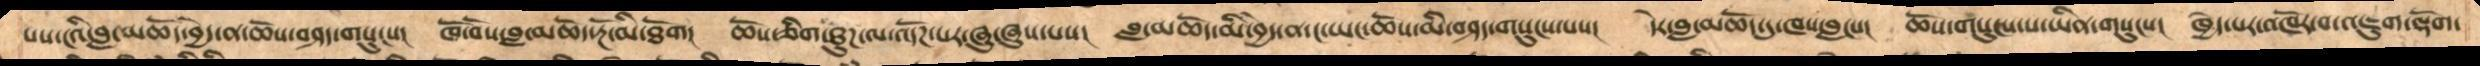པས་ངའི་བླ་མཆོད་བྱེད་ན་ཆོས་བཤད་གསུངས།   ཁོ་བོས་བླ་མཆོད་རྔོ་མི་ཐོག།   ཆོས་ཅིག་ཐུཌ་ལ་འདོཌ་པར་ཞུ་ཞུས་པས།    བླ་མཆོད་མི་བྱེད་ན་ང་ཡང་ཆོས་མི་བཤད་གསུངས་པས།  དེར་བླ་མཆོད་དུ་ཁས་བླངས།    ཆོས་གསུངས་པ་ཡིན་གསུངས།    ཁྱེད་པར་འཁོར་བ་འཇུག་ལྡོག་
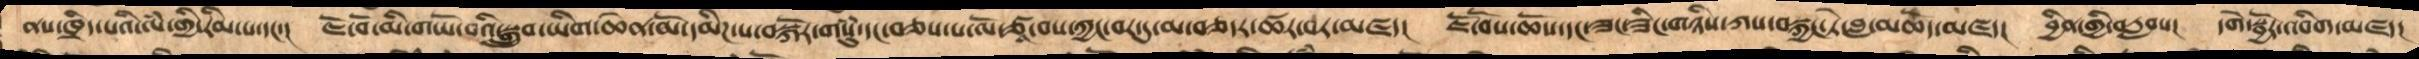ནས་ཁྲིད་པའི་ལཾ་གྱི་རིམ་པ་དང་།  ཇོ་བོ་མི་གཡོ་བའི་སྒྲུབ་ཡིག་ཆེན་མོ་དམིཌ་པ་བསྐོར་གསུཾ་དང་བཅས་པ་ལོ་ཙཱ་བས་ཀྱང་བར་དུ་མ་བཅདར་ཚར་བར་མཛད།  ཇོ་བོས་ཆོས་དང་ཟང་ཟིང་གཉིས་ཀས་བསྐྱང་ཏེ་བླ་མཆོད་མཛད།   བྱིན་གྱི་བརླབས།   དགེ་སྦྱོར་འབིག་མཛད།
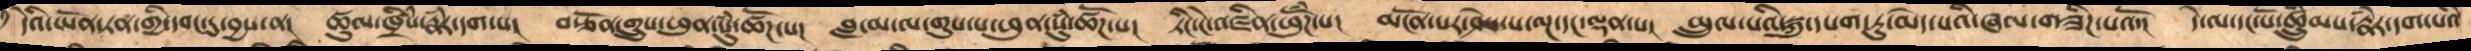དེའི་ཡོན་ཏན་གྱི་དབང་དུ་བྱས་ན།  ཚུལ་ཁྲིཾས་རྣཾར་དག་པ།   བརྩོན་གྲུས་ཕུན་སུཾ་ཚོཌ་པ།   བླ་མ་ལ་གུས་པ་ཕུན་སུཾ་ཚོཌ་པ།   ཏིང་ངེ་འཛིན་ཕུཾཚོཌ་པ།  མངོན་པར་ཤེས་པ་ལྔ་དང་ལྡན་པ།   སྤྲུལ་པའི་སྐུ་དཔག་ཏུ་མེད་པའི་ཞལ་གཟིཌ་པའོ་།   དེ་ལ་དང་པོ་ཚྲིུམས་རྣཾར་དག་པའི
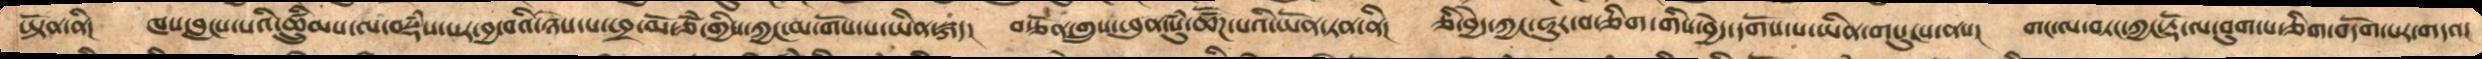ཡྟོན་ནི།   ཁས་བླངས་པའི་ཚྲིུམས་ལ་བསྡཾས་པར་བྱ་བའི་ཉེས་པ་ཕྲ་མོ་ཙཾ་གྱིས་ཀྱང་མ་གོས་པ་ཡིན་སྐད།   བརྩོན་གྲུས་ཕུན་སུཾ་ཚོཌ་པའི་ཡོན་ཏན་ནི།   ཅི་བྱེད་ཀྱང་ཧུར་བ་ཅིག་གིས་བྱེད་དགོས་པ་ཡིན་གསུངས་ནས།   གང་ལ་བཏང་ཀྱང་རྡོ་ལ་བུག་པ་ཅིག་བདོག་པར་གདའ།
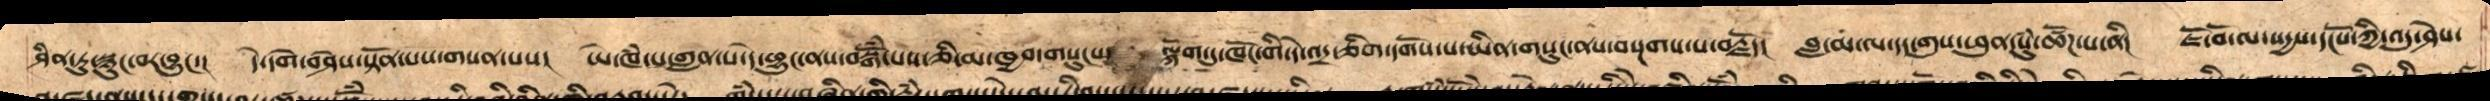ཤིན་ཏུ་སྙུང་བར་བྱུང་།   དེ་དགེ་བཤེས་སྟོན་པས་གསན་པས།   ཡེ་ཁཾ་པ་གླན་པ་དེ་ཕྱུང་ནས་བསྒོཾས་པས་ཅི་མ་ཁྱབ་གསུངས།   ལྐོག་ཏུ་ཁོང་གི་དེ་འདྲ་ཅིག་དགོས་པ་ཡིན་གསུང་ནས་བསྔགས་པ་བརྗོད།   བླ་མ་ལ་དད་གུས་ཕུན་སུཾ་ཚོཌ་པ་ནི། ཇོ་བོ་ལ་སདྱས་དངོས་ཀྱི་འདུ་ཤེས་
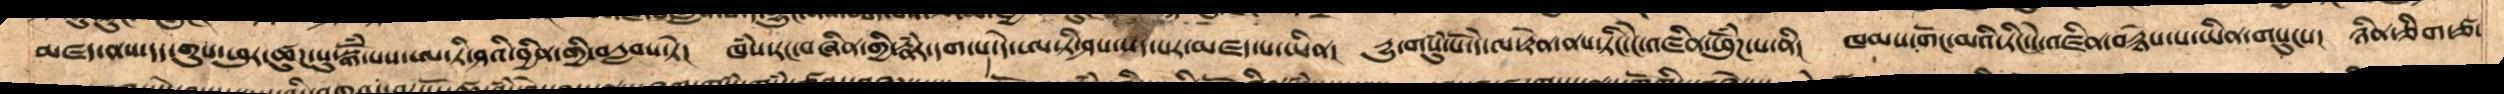མཛད་ནས་དད་གུས་ཕུར་ཚུཌ་སུ་སྒོཾ་པས་ཨ་ཏི་ཤའི་བྱིན་གྱི་བརླབས་ཏེ།   ཁཾས་རང་བཞིན་གྱི་རྣཾར་དག་པ་དེ་ཨ་ཏི་ཤས་སད་པར་མཛད་པ་ཡིན།   དྱུ་གསུཾ་པོ་དེ་ལ་རྟེན་ནས་ཏིང་ངེ་འཛིན་ཕོུཾཌ་པ་ནི།   ཁམས་གོང་མའི་ཏིང་ངེ་འཛིན་བརྙེས་པ་ཡིན་གསུངས།   ཉིན་ཅིག་ཙ་
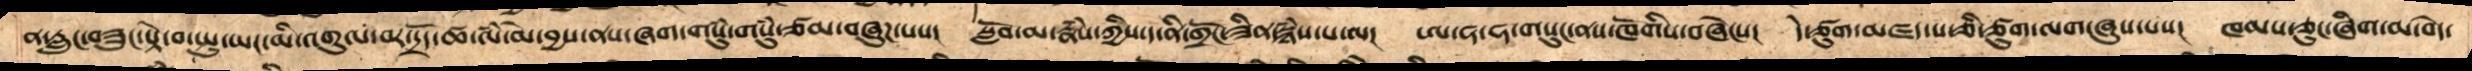ན་རླུང་བཟུང་སྟེ་བ་སྤུ་ཡང་མི་འགུལ་བར་དྲོད་ཚ་ལཾ་མེ་བྱས་ནས་ཞག་གསུཾ་གསུཾ་ཙམ་བཞུཌ་པས།  སློབ་མ་རྣཾས་ཀྱིས་ད་ནི་གྲོང་ཟིན་སྙཾས་པ་ལ།  ཨ་ཧ་ཧ་གསུང་ནས་ཁོགིས་བཞེངས།   དེ་ཙུག་མཛད་པ་ཅི་ཙུག་ལག་ཞུས་པས།  ཁམས་ཅུང་ཞིག་མ་བདེ་
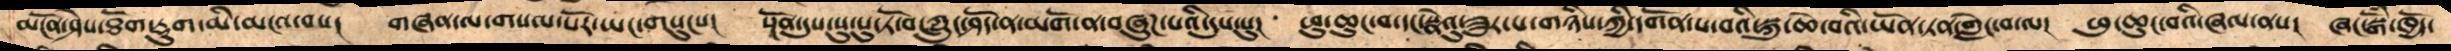མངོན་ཤེས་ཐོག་རྡུག་མི་མངའ་བས།   གཞན་ལ་གསལ་པོར་ཡང་གསུངས།   སྔོན་དུས་སུ་པུ་ཏོ་བ་ཀླུང་ཤོད་ན་མགོ་ན་བཞུཌ་པའི་དུས་སུ།   ཕུ་ཆུང་བ་དང་སྣེའུ་ཟུར་པ་གཉིས་ཀྱི་དགོན་པ་བའི་སྐུ་ཆེ་བའི་ཡོན་ཏན་གླེང་བ་ལ།   ཕུ་ཆུང་བའི་ཞལ་ནས།  ཞང་སྒོཾ་ཁྱོད་
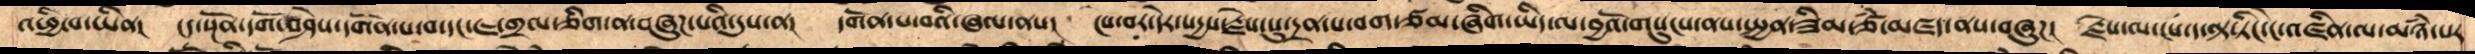འཕྱི་བ་ཡིན།   ངད་སྔོན་དགེ་བཤེས་དགོན་པ་བ་དང་ཇ་གྲལ་ཅིག་ན་བཞུཌ་པའི་དུས་ན།   དགོན་པ་བའི་ཞལ་ནས།  ངེས་བར་དེར་སདྱས་རྗེས་སུ་དྲན་པ་བག་ཙམ་ཞིག་ཡིད་ལ་བྱའོ་གསུངས་ནས་སྤྱན་ཟིམ་ཙཾ་མཛད་ནས་བཞུཌ།  རྗེས་ལ་ངས་ད་ལྟ་ཏིང་ངེ་འཛིན་ལ་མཉཾ་པར
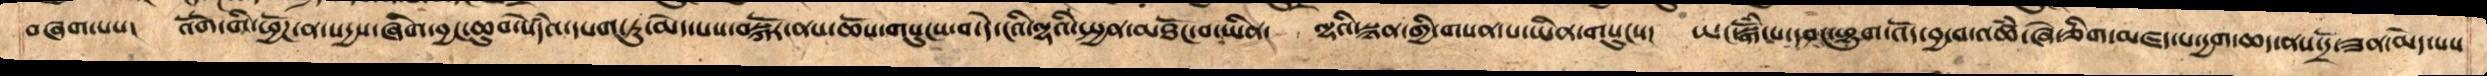བཞག་པས་   འོག་གི་ཕྱོཌ་ན་སདྱས་ཞིག་བྱང་ཆུབ་སེཾདའ་དཔག་ཏུ་མེད་པས་བསྐོར་ནས་ཆོས་གསུངས་བ་དེ་ངའི་ལྷའི་སྤྱན་མཐོང་བ་ཡིན།   ལྷའི་སྙན་གྱི་གསན་པ་ཡིན་གསུངས།   ཡང་སྒོཾ་པ་དབང་ཕྱུག་འོད་བྱ་བ་འཚཾ་ཞེ་ཅིག་མཛད་པ་དྱག་ཆད་ནས་དྲོ་ཟན་མེད་པས
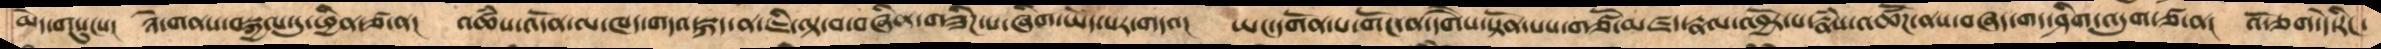མེད་གསུངས།   ཉེ་གནས་བསྐྱལ་དུ་ཕྱིན་ཙ་ན།   འཚཾས་འདོན་ལ་ཁད་གདའ་སྐད་ན་ཇི་ལྟ་བ་བཞིན་གཟིཌ་པ་ཞིག་ཡོད་པར་གདའ།  ཡང་དགོན་པ་གོང་ན་དགཻས་སྟོན་པས་གཙོ་མཛད་རྣལ་འབྱོར་པ་རྣཾས་འཚོཌ་ནས་བཞད་གད་ཤིག་འདུག་ཙ་ན། འོ་ཅག་དེ་རིང་
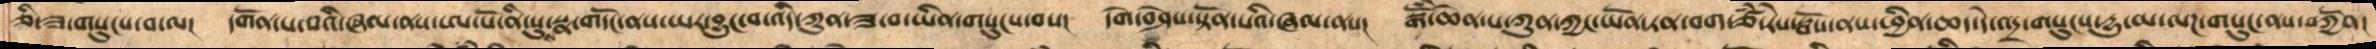ཅི་ཟ་གསུངས་བ་ལ།  དགོན་པ་བའི་ཞལ་ནས་ཨ་པོ་ནི་པུ་སྣ་གདོང་ན་ཡར་བྱུང་བ་འདི་ཀུན་ཟ་བ་ཡིན་གསུངས་བས།  དགེ་བཤེས་སྟོན་པའི་ཞལ་ནས།  སྒོཾ་ཆེན་པ་ཀུན་ཀྱང་ཡོན་ཏན་བག་ཙཾ་རེས་སྦོས་ནས་ཕྱིན་ཆད་དེ་འདྲ་གསུངས་དྱུ་མ་ལཌ་གསུང་ནས་བཀྱོན།
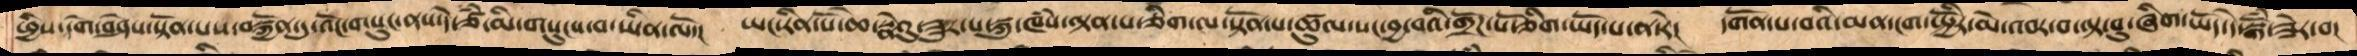ཕྱེས་དགེ་བཤེས་སྟོན་པས་བསྐྱོན་དུ་འོང་བ་གསུང་ནས་དེ་ཙཾ་མི་གསུངས་བ་ཡིན་ལོ།  ཡང་རིན་པོ་ཆེ་སྣེའུ་ཟུར་པ་སྐུ་ཁཾས་ལྟན་པ་ཅིག་ལ་སྟོན་པ་ཚུལ་སང་བྱ་བའི་གྲོཌ་པོ་ཅིག་ཡོད་པ་ན་རེ།   དགོན་པ་བའི་མན་ངག་སྤྱོིར་མེ་འབར་བ་ལྟ་བུ་ཞིག་ཡོད་དོ་སྒོཾ་ཟེར་བ།
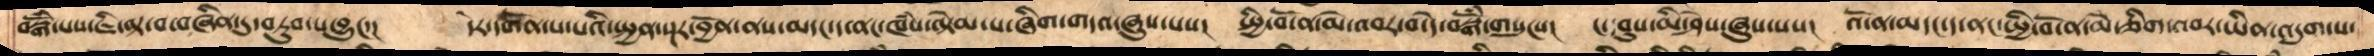བསྒོཾ་པས་ཇི་ལྟ་བ་བཞིན་དུ་བཏུབ་པ་བྱུང་།   དེར་དགོན་པ་པའི་སྤྱན་སྔར་བྱོན་ནས་མདང་ད་ནང་ཁཾས་ལྟེམ་པ་ཞིག་གདའ་ཞུས་པས།   སྤྱི་བོ་ན་མེ་འབར་བ་དེ་བསྒོཾ་གསུངས་།  ང་དབུས་མི་ཤེས་ཞུས་པས།  འོ་ན་མདང་ད་ནང་སྤྱི་བོ་ན་མེ་ཅིག་འབར་ཡིན་འདུག་པ་
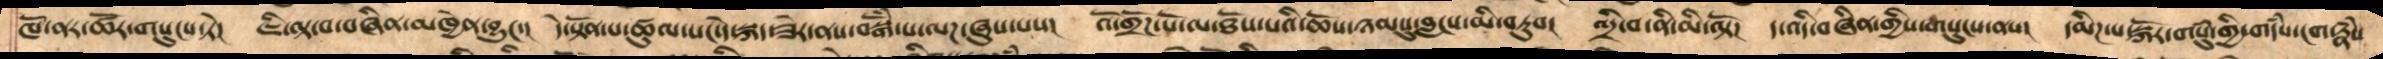ཁོ་ནར་ཚོར་གསུངས་སྟེ།   ཇི་ལྟ་བ་བཞིན་མཁྱེན་བྱུང་།   དེ་སྟོན་པ་ཚུལ་པང་དེ་སྐད་ཟེར་ནས་བསྒོཾ་པ་ལཌ་ཞུས་པས།  འོ་གྲོཌ་པོ་ལ་ཐོས་པའི་ཆོས་ཉམསུ་བླངས་མི་བཏུབ།   འདྲི་བ་ནི་མི་ལྟོ།   ད་འདི་བཞིན་གྱིས་གསུངས་ནས།   དམིཌ་པ་སྐོར་གསུཾ་གྱི་གདཾས་ངག་རྣཾས་
